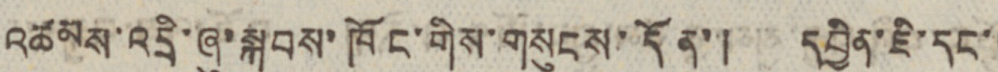འཚམས་འདྲི་ཞུ་སྐབས་ཁོང་གིས་གསུངས་དོན་། དབྱིན་ཇི་དང་།
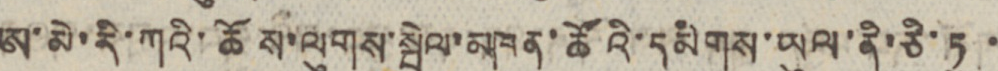ཨ་མེ་རི་ཀའི་ཆོས་ལུགས་སྦེལ་མཁན་ཚོའི་དམིགས་ཡུལ་ནི་ཅི་ཏུ་
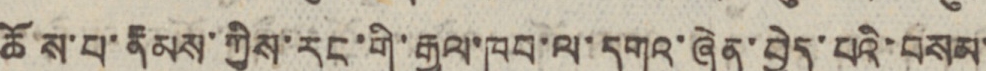ཆོས་པ་རྣམས་ཀྱིས་རང་གི་རྒྱལ་ཁབ་ལ་དགའ་ཞེན་བྱེད་པའི་བསམ་
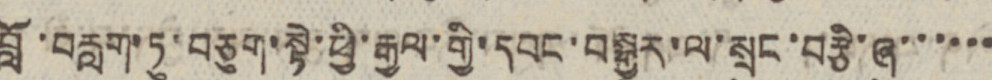བློ་བརླག་ཏུ་བཅུག་སྟེ་ཕྱི་རྒྱལ་གྱི་དབང་བསྒྱུར་ལ་སྲུང་བརྩི་ཞུ་་་་་་
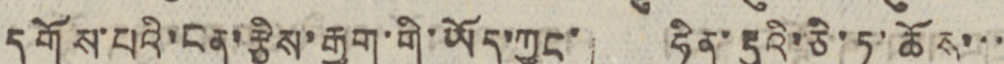དགོས་པའི་ངན་རྩིས་རྒྱག་གི་ཡོད་ཀྱང་། ཧིན་རྡུའི་ཅི་ཏུ་ཆོས་་་
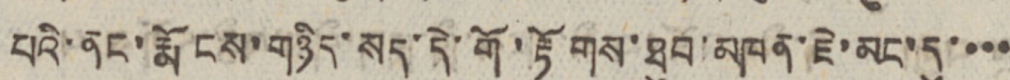པའི་ནང་རྨོངས་གཉིད་སད་དེ་གོ་རྟོགས་ཐུབ་མཁན་ཇེ་མང་དུ་་་་
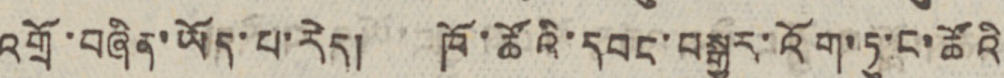འགྲོ་བཞིན་ཡོད་པ་རེད། ཁོ་ཚོའི་དབང་བསྒྱུར་འོག་ཏུ་ང་ཚོའི
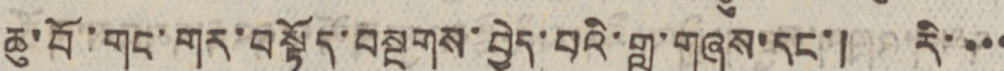ཆུ་བོ་གང་གར་བསྟོད་བསྔགས་བྱེད་པའི་གླུ་གཞས་དང་། རི་་་་
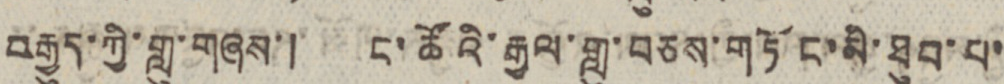བརྒྱུད་ཀྱི་གླུ་གཞས་། ང་ཚོའི་རྒྱལ་གླུ་བཅས་གཏོང་མི་ཐུབ་པ་
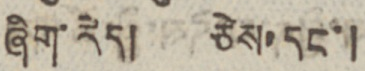ཞིག་རེད། ཅེས་དང་།
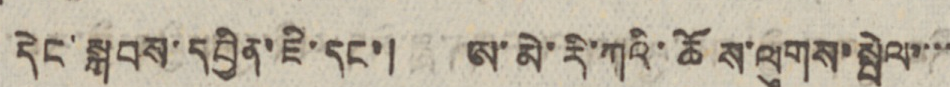དེང་སྐབས་དབྱིན་ཇི་དང་། ཨ་མེ་རི་ཀའི་ཆོས་ལུགས་སྦེལ་་་་
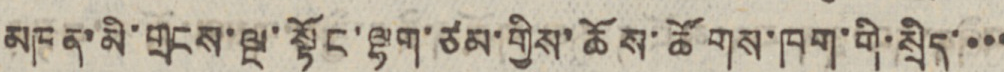མཁན་མི་གྲངས་ལྔ་སྟོང་ལྷག་ཙམ་གྱིས་ཆོས་ཚོགས་ཁག་གི་སྲིད་་་་
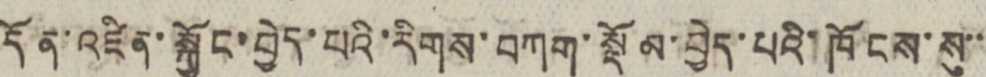དོན་འཛིན་སྐྱོང་བྱེད་པའི་རིགས་བཀག་སྡོམ་བྱེད་པའི་ཁོངས་སུ་་་
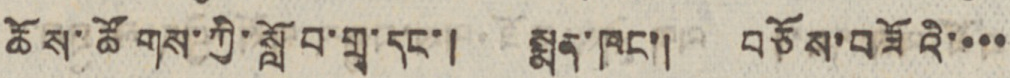ཆོས་ཚོགས་ཀྱི་སློབ་གྲྭ་དང་། སྨན་ཁང་། བཅོས་བཟོའི་་་་
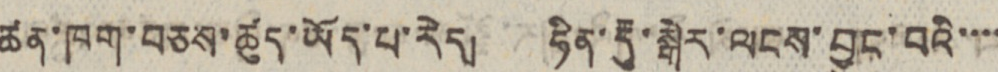ཚན་ཁག་བཅས་ཚུད་ཡོད་པ་རེད། ཧིན་རྡུ་སྒེར་ལངས་བྱུང་བའི་་་་
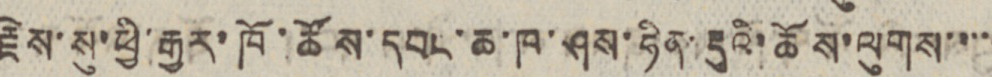རྗེས་སུ་ཕྱི་རྒྱར་ཁོ་ཚོས་དབང་ཆ་ཁ་ཤས་ཧིན་རྡུའི་ཆོས་ལུགས་་་་་
